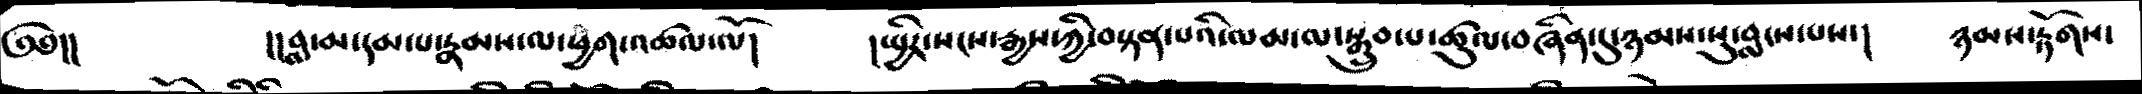༅།།        །།བླ་མ་དམ་པ་རྣམས་ལ་ཕྱག་འཚལ་ལོ།    །ཡྱིར་སངས་རྒྱས་ཀྱི་བསྟན་པའི་ལམ་ལ་སྒྲུབ་པ་ཚུལ་བཞིན་དུ་ཉམས་སུ་བླངས་པས་།   ཉམས་རྟོགས་
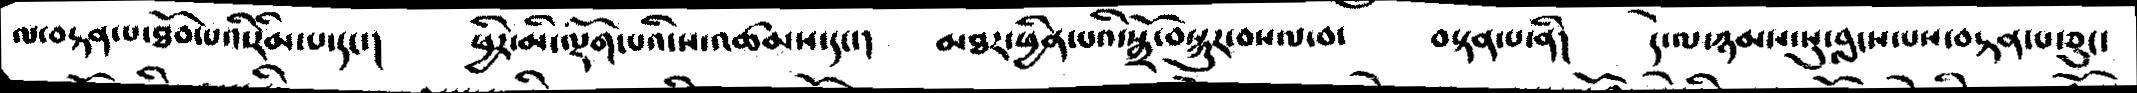ལ་བརྟན་པ་ཐོབ་པའི་རིམ་པ་དང་།   ཕྱིར་མི་ལྡོག་པའི་ས་འཚམས་དང་།    མཐར་ཕྱིན་པའི་སྒྲོ་བསྐུར་བསལ་བ་     བསྟན་པ་ནི།    དེ་ལ་ཉམས་སུ་བླངས་པས་བརྟན་པ་ཅུང་
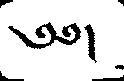༄༅།
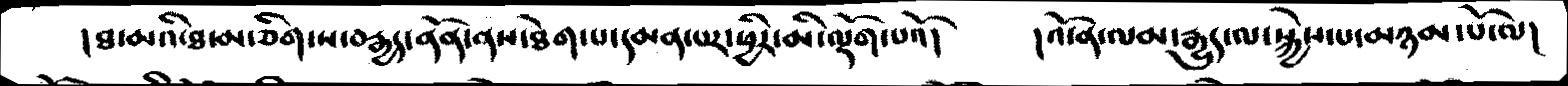། ཐ་མའི་ཐ་མ་ཅིག་ས་བརྒྱད་ནོན་ནས་ཐེག་པ་དམན་པར་ཕྱིར་མི་ལྡོག་པའོ།     །འོ་ན་ལམ་རྒྱུད་ལ་སྐྱེས་པ་མཉམ་པོ་ལ།
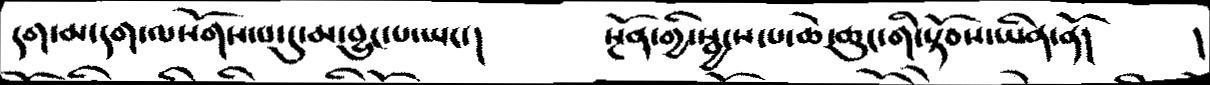དག་མ་དག་ལསོགས་པ་དུ་མ་བྱུང་པ་ཡང་།    སྔོན་གྱི་སྦྱངས་པ་ཆེ་ཆུང་གི་སྟོབས་ཡིན་ནོ།     །
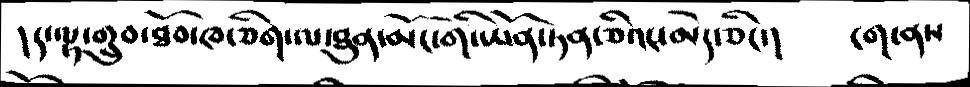། ད་ལྟ་གྲུབ་ཐོབ་ཁ་ཅིག་ལ་ཐུན་མོང་གི་ཡོན་ཏན་ཅིའང་མེད་ཅིང་།   ངག་ནས
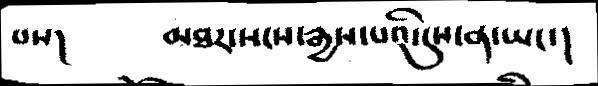པས།     མཐར་སངས་རྒྱས་པའི་དུས་ན་ཡང་།
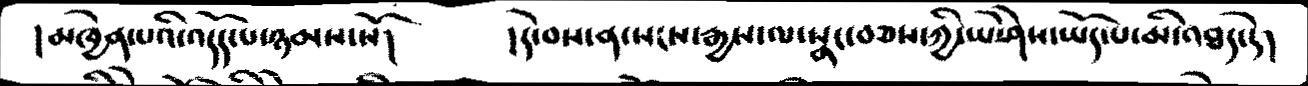།མཁྱེན་པའི་འདོད་པ་ཉམས་སོ།    །དེ་བས་ན་སངས་རྒྱས་ལ་སྣང་བཅས་ཀྱི་ཡེ་ཤེས་ཡོད་པ་མི་འཐད་དེ།
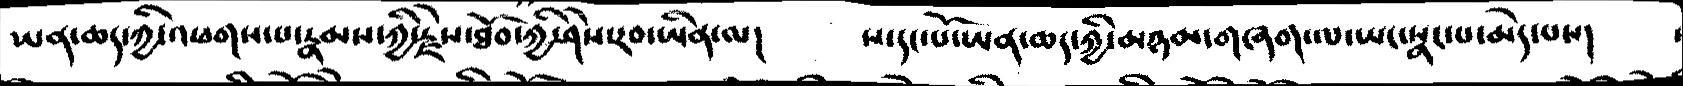ཡན་ཆད་ཀྱི་འཕགས་པ་རྣམས་ཀྱི་རྫེས་ཐོབ་ཀྱི་ཤེས་རབ་ཡིན་ལ།  ས་དང་པོ་ཡན་ཆད་ཀྱི་མཉམ་གཞག་ལ་ཡང་སྣང་པ་མེད་པས།
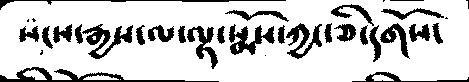སངས་རྒྱས་ལ་ལྟ་སྨོས་ཀྱང་ཅི་དགོས་
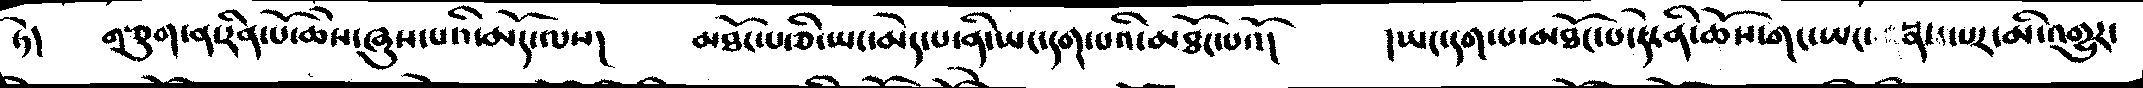ཏེ།   གཅུག་ན་རིན་པོ་ཆེས་ཞུས་པའི་མདོ་ལས།    མཐོང་པ་ཅི་ཡང་མེད་པ་ནི་ཡང་དག་པའི་མཐོང་པའོ།   ། ཡང་དག་པ་མཐོང་པ་ནི་ཆོས་གང་ཡང་ སྣང་པར་མི་འགྱུར་
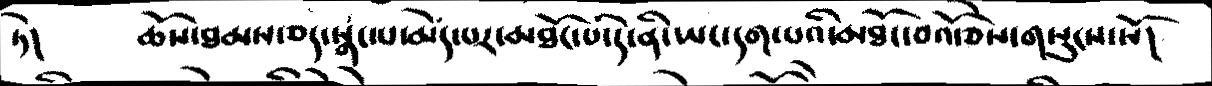ཏེ།        ཆོས་ཐམས་ཅད་སྣང་པ་མེད་པར་མཐོང་པ་དེ་ནི་ཡང་དག་པའི་མཐོང་བའོ་ཅེས་གསུངས་སོ།
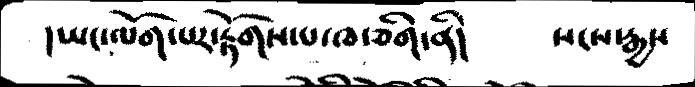། ཡང་ལོག་པར་རྟོགས་པ་ཁ་ཅིག་ནི།    སངས་རྒྱས
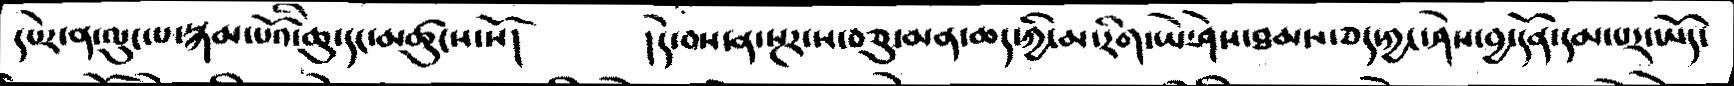དཔེར་ན་ལུང་པ་སྐམ་པོའི་ཆུ་དང་མཚུངས་སོ།     །དེ་བས་ན་སྔར་ས་བཅུ་མན་ཆད་ཀྱི་མ་རིག་ཡེ་ཤེས་ཐམས་ཅད་ཀྱང་ཤེས་བྱ་དོན་དམ་པར་ཡོད་
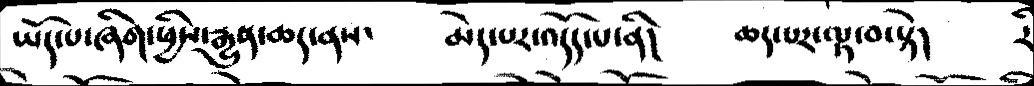ཡོད་པ་ཞིག་ཕྱིས་རྒྱུན་ཆད་ནས་   མེད་པར་འདོད་པ་ནི།    ཆད་པར་ལྟ་བ་སྟེ།  རི
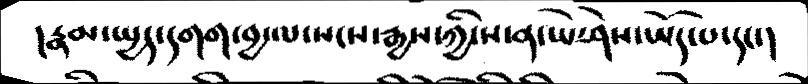།རྣམ་སྤྱད་དགག་བྱ་ལ་སངས་རྒྱས་ཀྱི་ས་ན་ཡེ་ཤེས་ཡོད་པ་དང་།
